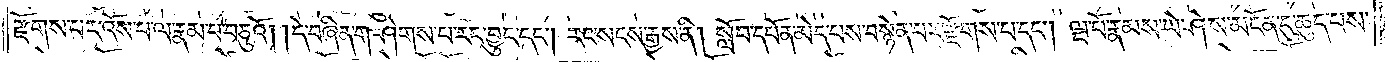རྫོགས་པར་འོས་པ་ལ་རྣམ་པ་བཅུའོ། །དེ་བཞིན་གཤེགས་པ་རང་བྱུང་དང༌། རང་སངས་རྒྱས་ནི། སློབ་དཔོན་མེད་པས་བསྙེན་པར་རྫོགས་པ་དང༌། ལྔ་པོ་རྣམས་ཡེ་ཤེས་མངོན་དུ་ཆུད་པས་
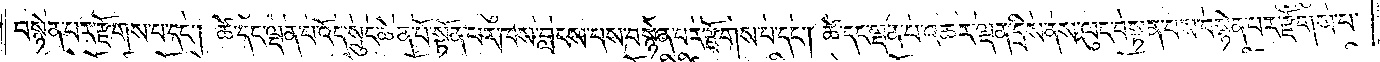བསྙེན་པར་རྫོགས་པ་དང༌། ཚེ་དང་ལྡན་པ་འོད་སྲུང་ཆེན་པོ་སྟོན་པར་ཁས་བླངས་བས་བསྙེན་པར་རྫོགས་པ་དང༌། ཚེ་དང་ལྡན་པ་འཆར་ལྡན་དྲིས་ནས་ལུང་བསྟན་པས་བསྙེན་པར་རྫོགས་པ་
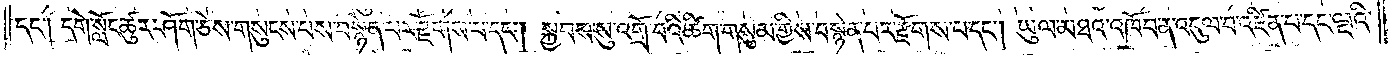དང༌། དགེ་སློང་ཚུར་ཤོག་ཅེས་གསུངས་པས་བསྙེན་པར་རྫོགས་པ་དང༌། སྐྱབས་སུ་འགྲོ་བའི་ཚིག་གསུམ་གྱིས་བསྙེན་པར་རྫོགས་པ་དང༌། ཡུལ་མཐའ་འཁོབ་ན་འདུལ་བ་འཛིན་པ་དང་ལྔའི་
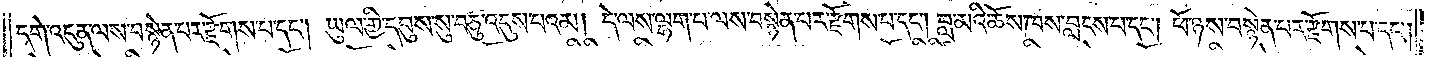དགེ་འདུན་ལས་བསྙེན་པར་རྫོགས་པ་དང༌། ཡུལ་གྱི་དབུས་སུ་བཅུ་འདུས་པའམ། དེ་ལས་ལྷག་པ་ལས་བསྙེན་པར་རྫོགས་པ་དང༌། བླ་མའི་ཆོས་ཁས་བླངས་པ་དང༌། ཕོ་ཉས་བསྙེན་པར་རྫོགས་པ་དང༌།
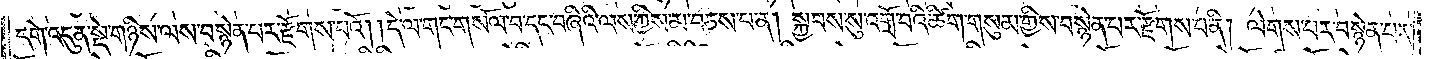དགེ་འདུན་སྡེ་གཉིས་ལས་བསྙེན་པར་རྫོགས་པའོ། །དེ་ལ་གང་གསོལ་བ་དང་བཞིའི་ལས་ཀྱིས་མ་བཅས་པ་ན། སྐྱབས་སུ་འགྲོ་བའི་ཚིག་གསུམ་གྱིས་བསྙེན་པར་རྫོགས་པ་ནི། ལེགས་པར་བསྙེན་པར་
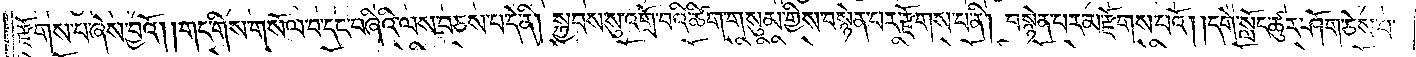རྫོགས་པ་ཞེས་བྱའོ། །གང་གིས་གསོལ་བ་དང་བཞིའི་ལས་བཅས་པ་དེ་ནི། སྐྱབས་སུ་འགྲོ་བའི་ཚིག་གསུམ་གྱིས་བསྙེན་པར་རྫོགས་པ་ནི། བསྙེན་པར་མ་རྫོགས་པའོ། །དགེ་སློང་ཚུར་ཤོག་ཅེས་པ་
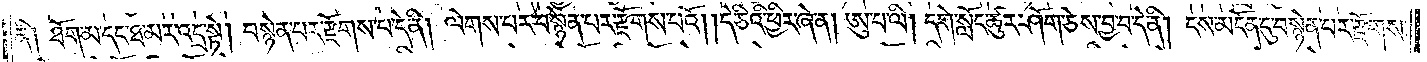ནི། ཐོག་མ་དང་ཐ་མར་འདྲ་སྟེ། བསྙེན་པར་རྫོགས་པ་དེ་ནི། ལེགས་པར་བསྙེན་པར་རྫོགས་པའོ། །དེ་ཅིའི་ཕྱིར་ཞེ་ན། ཨུ་པ་ལི། དགེ་སློང་ཚུར་ཤོག་ཅེས་བྱ་བ་དེ་ནི། ངས་མངོན་དུ་བསྙེན་པར་རྫོགས་
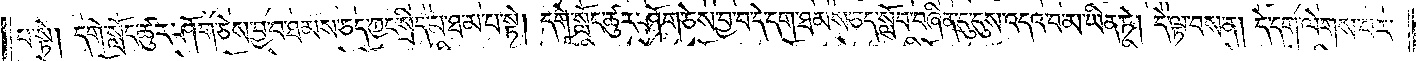པ་སྟེ། དགེ་སློང་ཚུར་ཤོག་ཅེས་བྱ་བ་ཐམས་ཅད་ཀྱང་སྲིད་པ་ཐ་མ་པ་སྟེ། དགེ་སློང་ཚུར་ཤོག་ཅེས་བྱ་བ་དེ་དག་ཐམས་ཅད་སློབ་བཞིན་དུ་དུས་འདའ་བ་མ་ཡིན་ཏེ། དེ་ལྟ་བས་ན། དེ་དག་ལེགས་པར་
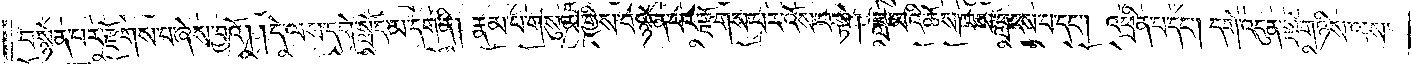བསྙེན་པར་རྫོགས་པ་ཞེས་བྱའོ། །དེ་ལས་དགེ་སློང་མ་དག་ནི། རྣམ་པ་གསུམ་གྱིས་བསྙེན་པར་རྫོགས་པར་འོས་པ་སྟེ། བླ་མའི་ཆོས་ཁས་བླངས་པ་དང༌། འཕྲིན་པ་དང༌། དགེ་འདུན་སྡེ་གཉིས་ལས་
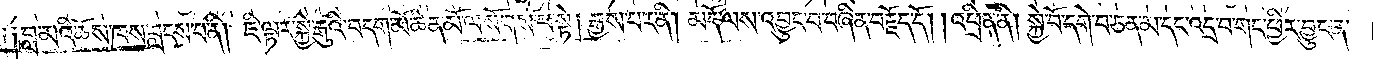༑ ༑བླ་མའི་ཆོས་ཁས་བླངས་པ་ནི། ཇི་ལྟར་སྐྱེ་རྒུའི་བདག་མོ་ཆེན་མོ་ལ་སོགས་པ་སྟེ། རྒྱས་པར་ནི། མདོ་ལས་འབྱུང་བ་བཞིན་བརྗོད་དོ། འཕྲིན་ནི། སྐྱེ་བོ་དགེ་བ་ཅན་མ་དང་འདྲ་བ་གང་ཕྱིར་བྱུང་ན་
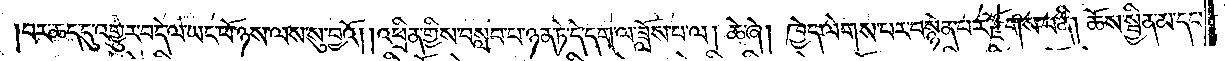བར་ཆད་དུ་འགྱུར་བ་དེ་ལ་ཡང་ཕོ་ཉས་ལས་སུ་བྱའོ། །འཕྲིན་གྱིས་བསླབ་པ་ཉན་ཏེ་དེ་དག་ལ་ཟློས་པ་ལ། ཆེ་ཞེ། ཁྱེད་ལེགས་པར་བསྙེན་པར་རྫོགས་པ་ནི། ཆོས་སྦྱིན་མ་དང་
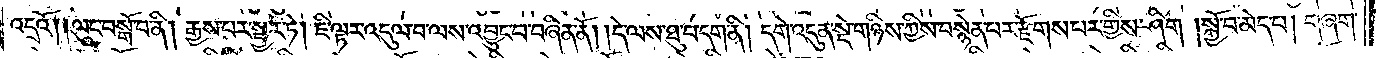འདྲའོ། །ལུང་བསྒོ་བ་ནི། རྒྱས་པར་སྦྱར་ཏེ། ཇི་ལྟར་འདུལ་བ་ལས་འབྱུང་བ་བཞིན་ནོ། །དེ་ལས་ཐུ་བ་དག་ནི། དགེ་འདུན་སྡེ་གཉིས་ཀྱིས་བསྙེན་པར་རྫོགས་པར་གྱིས་ཤིག །སྐྱོ་བ་མེད་པ། གཞག་
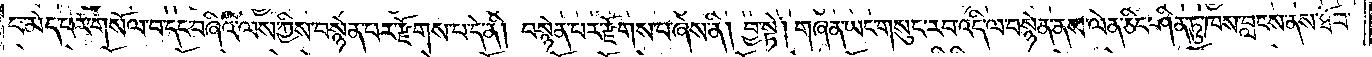པ་མེད་པར་གསོལ་བ་དང་བཞིའི་ལས་ཀྱིས་བསྙེན་པར་རྫོགས་པ་དེ་ནི། བསྙེན་པར་རྫོགས་པ་ཞེས་ནི། བྱ་སྟེ། གཞན་ཡང་གསུང་རབ་འདི་ལ་བསྙེན་ནས་ལེན་ཅིང་ཤིན་ཏུ་ཁས་བླངས་ནས་ཐོབ་
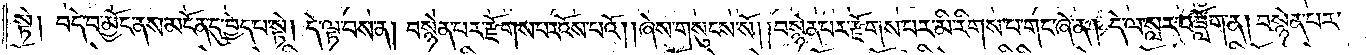སྟེ། བདེ་བ་མྱོང་ནས་མངོན་དུ་བྱེད་པ་སྟེ། དེ་ལྟ་བས་ན། བསྙེན་པར་རྫོགས་པར་འོས་པའོ། །ཞེས་གསུངས་སོ། །བསྙེན་པར་རྫོགས་པར་མི་རིགས་པ་གང་ཞེ་ན། དེ་ལ་སླར་བཟློག་ན། བསྙེན་པར་
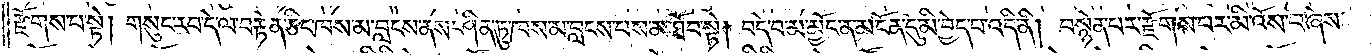རྫོགས་པ་སྟེ། གསུང་རབ་དེ་ལ་བརྟེན་ཅིང་ཁས་མ་བླངས་ནས་ཤིན་ཏུ་ཁས་མ་བླངས་པས་མ་ཐོབ་སྟེ། བདེ་བ་མ་མྱོང་ན་མངོན་དུ་མི་བྱེད་པ་འདི་ནི། བསྙེན་པར་རྫོགས་པར་མི་འོས་པ་ཞེས་
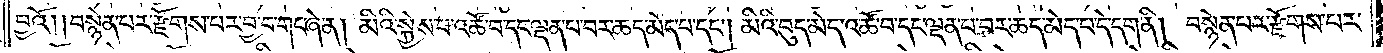བྱའོ། །བསྙེན་པར་རྫོགས་པར་བྱ་བ་གང་ཞེ་ན། མིའི་སྐྱེས་པའི་འཚོ་བ་དང་ལྡན་པ་བར་ཆད་མེད་པ་དང༌། མིའི་བུད་མེད་འཚོ་བ་དང་ལྡན་པ་བར་ཆད་མེད་པ་དེ་དག་ནི། བསྙེན་པར་རྫོགས་པར་
